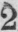2
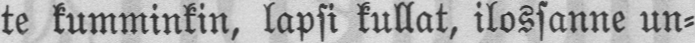te kumminkin, lapsi kullat, ilossanne un-
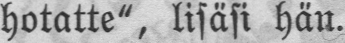hotatte", lisäsi hän.
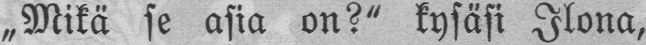„Mikä se asia on?" kysäsi Ilona,
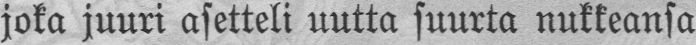joka juuri asetteli uutta suurta nukkeansa
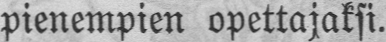pienempien opettajaksi.
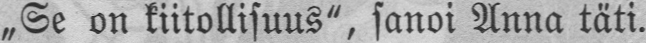„Se on kiitollisuus", sanoi Anna täti.
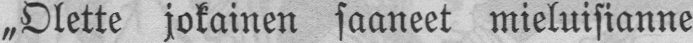„Olette jokainen saaneet mieluisianne
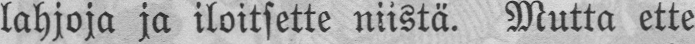lahjoja ja iloitsette niistä. Mutta ette
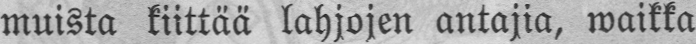muista kiittää lahjojen antajia, waikka
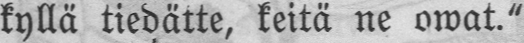kyllä tiedätte, keitä ne owat."
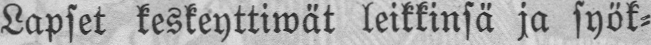Lapset keskeyttiwät leikkinsä ja syök-
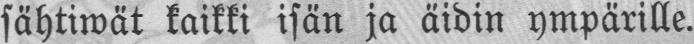sähtiwät kaikki isän ja äidin ympärille.
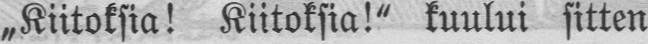„Kiitoksia! Kiitoksia!" kuului sitten
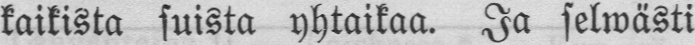kaikista suista yhtaikaa. Ja selwästi
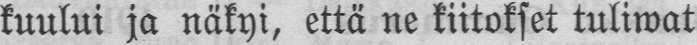kuului ja näkyi, että ne kiitokset tuliwat
